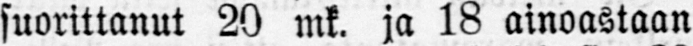suorittanut 20 mk. ja 18 ainoastaan
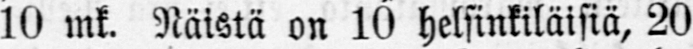10 mk. Näistä on 10 helsinkiläisiä, 20
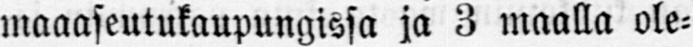maaseutukaupungissa ja 3 maalla ole-
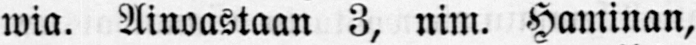wia. Ainoastaan 3, nim. Haminan,
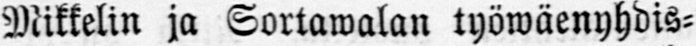Mikkelin ja Sortawalan työwäenyhdis-
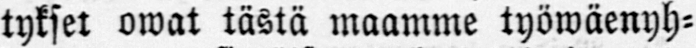tykset owat tästä maamme työwäenyh-
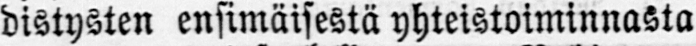distysten ensimäisestä yhteistoiminnasta
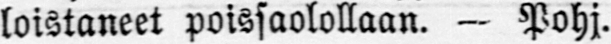loistaneet poissaolollaan. — Pohj.
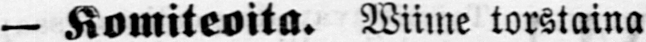— Komiteoita. Wiime torstaina
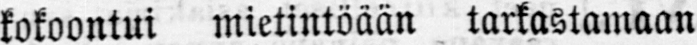kokoontui mietintöään tarkastamaan
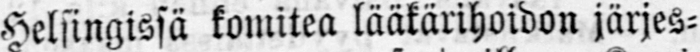Helsingissä komitea lääkärihoidon järjes-
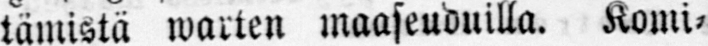tämistä warten maaseuduilla. Komi-
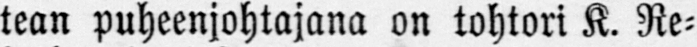tean puheenjohtajana on tohtori K. Re-
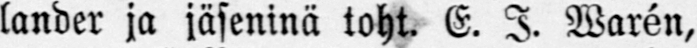lander ja jäseninä toht. E. J. Warén,
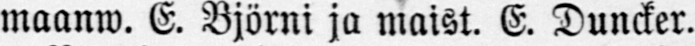maanw. E. Björni ja maist. E. Duncker.
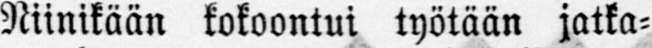Niinikään kokoontui työtään jatka-
